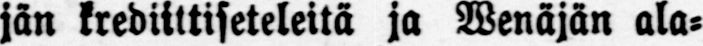jän krediittiseteleitä ja Wenäjän ala-
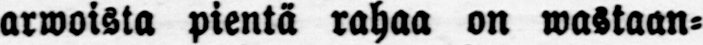arwoista pientä rahaa on wastaan-
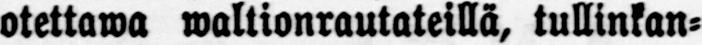otettawa waltionrautateillä, tullinkan-
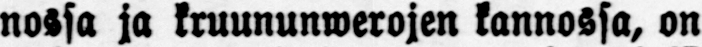nossa ja kruununwerojen kannossa, on
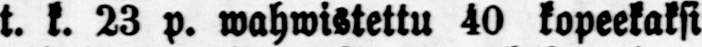t. k. 23 p. wahwistettu 40 kopeekaksi
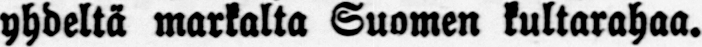yhdeltä markalta Suomen kultarahaa.
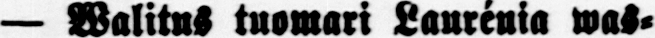— Walitus tuomari Laurénia was-
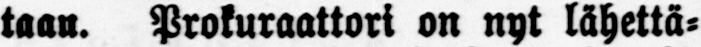taan. Prokuraattori on nyt lähettä-
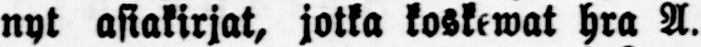nyt asiakirjat, jotka koskewat hra A.
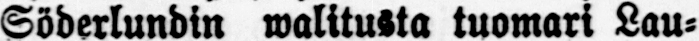Söderlundin walitusta tuomari Lau-
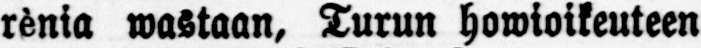renia wastaan, Turun howioikeuteen
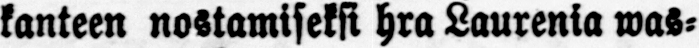kanteen nostamiseksi hra Laurenia was-
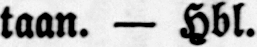taan. — Hbl.
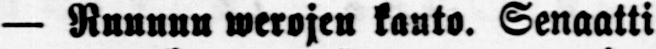— Ruunun werojen kanto. Senaatti
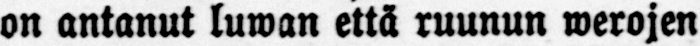on antanut luwan että ruunun werojen
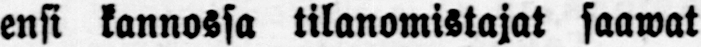ensi kannossa tilanomistajat saawat
